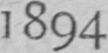1894
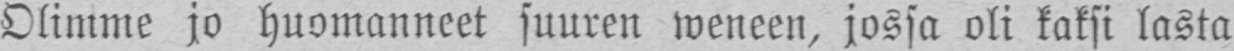Olimme jo huomanneet suuren weneen, jossa oli kaksi lasta
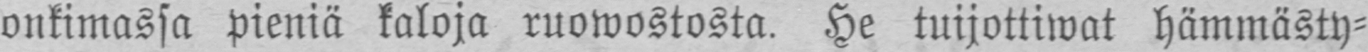onkimassa Pieniä kaloja ruowostosta. He tuijottiwat hämmästy-
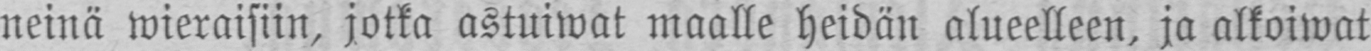neinä wieraisiin, jotka astuiwat maalle heidän alueelleen, ja alkoiwat
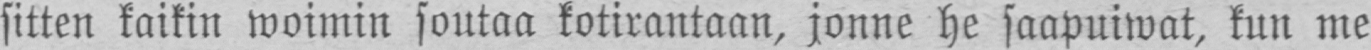sitten kaikin woimin soutaa kotirantaan, jonne he saapuiwat, kun me
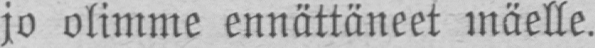jo olimme ennättäneet mäelle.
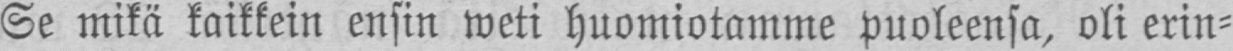Se mikä kaikkein ensin weti huomiotamme puoleensa, oli erin-
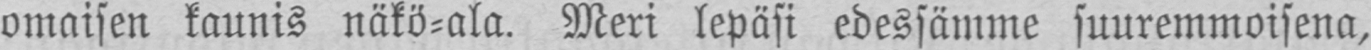omaisen kaunis näkö-ala. Meri lepäsi edessämme suuremmoisena,
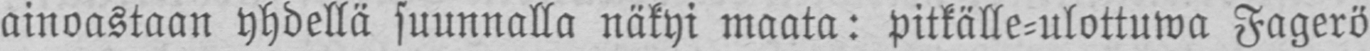ainoastaan yhdellä suunnalla näkyi maata: pitkälle-ulottuwa Fagerö
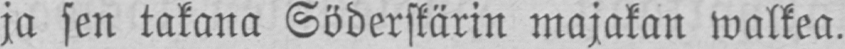ja sen takana Söderskärin majakan walkea.
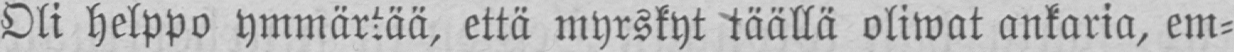Oli helppo ymmärtää, että myrskyt täällä oliwat ankaria, em-
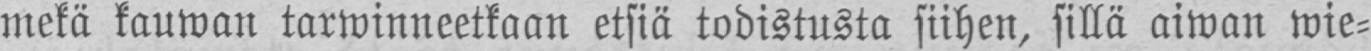mekä kauwan tarwinneetkaan etsiä todistusta siihen, sillä aiwan wie-
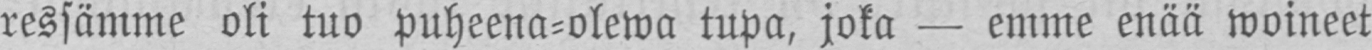ressämme oli tuo puheena-olewa tupa, joka — emme enää woineet
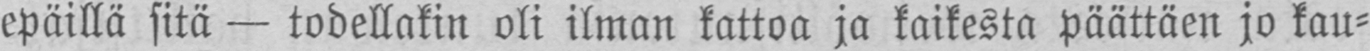epäillä sitä — todellakin oli ilman kattoa ja kaikesta päättäen jo kau-
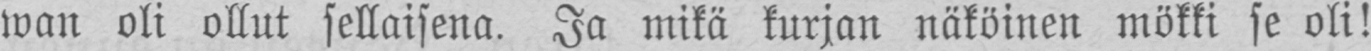wan oli ollut sellaisena. Ja mikä kurjan näköinen mökki se oli!
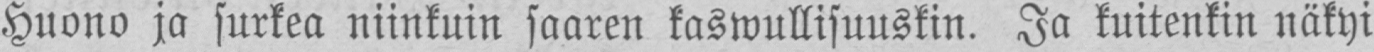Huono ja surkea niinkuin saaren kaswullisuuskin. Ja kuitenkin näkyi
